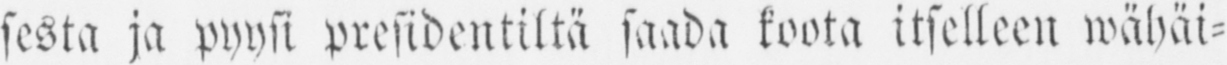sesta ja pyysi presidentiltä saada koota itselleen wähäi-
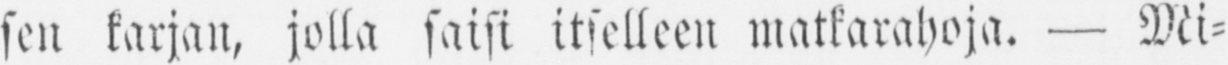sen karjan, jolla saisi itselleen matkarahoja. — Mi-
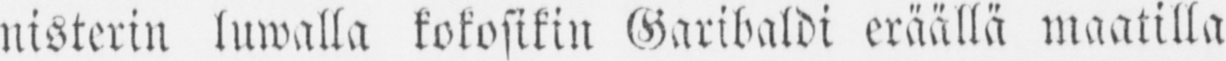nisterin luwalla kokosikin Garibaldi eräällä maatilla
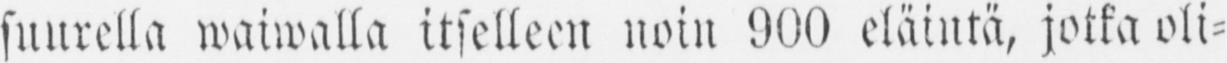suurella waiwalla itselleen noin 900 eläintä, jotka oli-
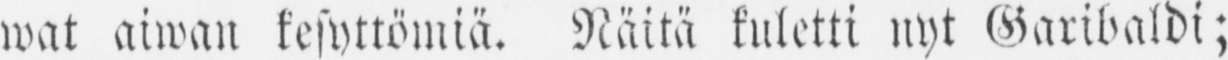wat aiwan kesyttömiä. Näitä kuletti nyt Garibaldi;
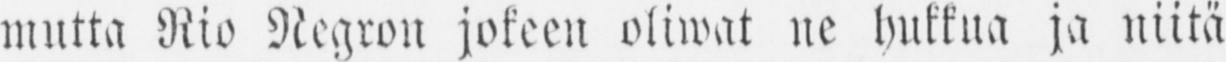mutta Rio Negron jokeen oliwat ne hukkua ja niitä
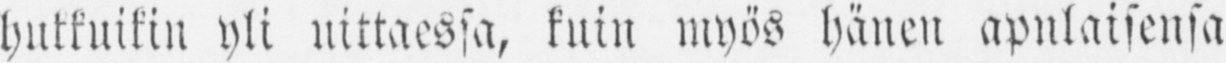hukkuikin yli uittaessa, kuin myös hänen apulaisensa
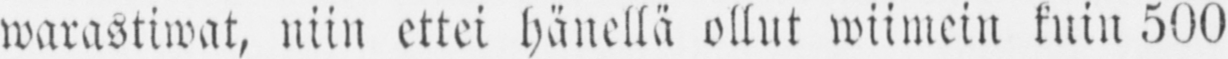warastiwat, niin ettei hänellä ollut wiimein kuin 500
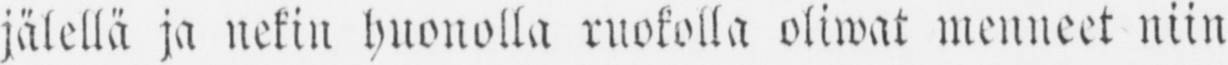jälellä ja nekin huonolla ruokolla oliwat menneet niin
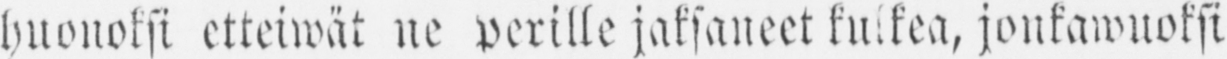huonoksi etteiwät ne perille jaksaneet kulkea, jonkawuoksi
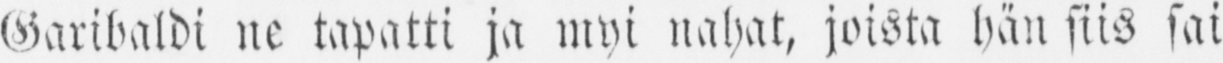Garibaldi ne tapatti ja myi nahat, joista hän siis sai
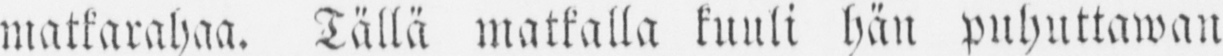matkarahaa. Tällä matkalla kuuli hän puhuttawan
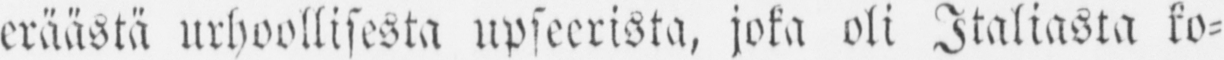eräästä urhoollisesta upseerista, joka oli Italiasta ko-
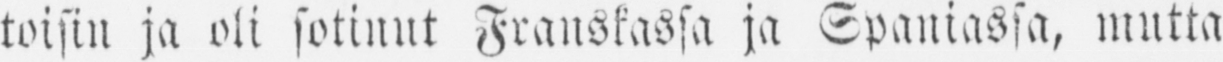toisin ja oli sotinut Franskassa ja Spaniassa, mutta
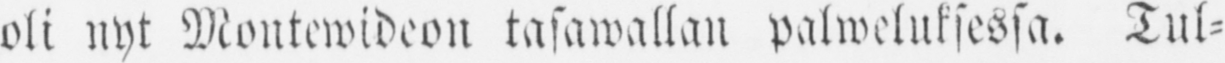oli nyt Montewideon tasawallan palweluksessa. Tul-
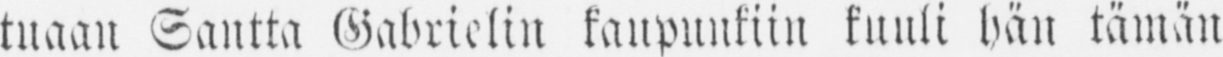tuaan Santta Gabrielin kaupunkiin kuuli hän tämän
